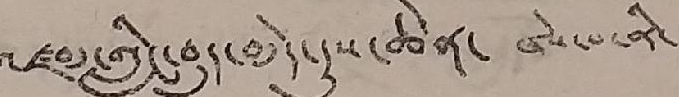འཛམ་གླིང་བུད་མེད་དུས་ཆེན་ ཞེས་པ་ནི་
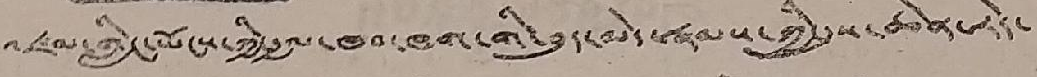འཛམ་གླིང་ཡོངས་ཀྱི་རྒྱལ་ཁབ་ཁག་གི་བུད་མེད་རྣམས་ཀྱི་དུས་ཆེན་རེད་
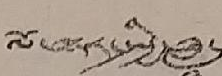ལོ་ལྟར་སྤྱི་ཟླ་
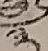༣
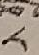༨
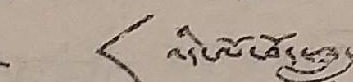<འདི་ལོ་བོད་ཟླ་
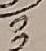༡༡
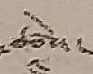ཚེས་
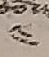༤
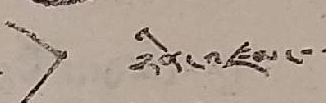> ཉིན་འཛམ་་་
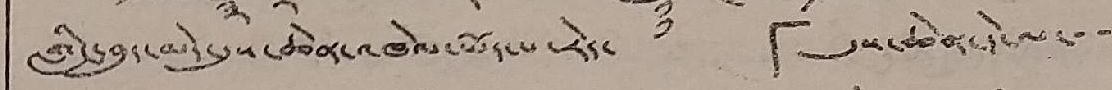གླིང་བུད་མེད་དུས་ཆེན་འཁེལ་ཡོད་པ་རེད་ 「དུས་ཆེན་དེ་ལ་་་
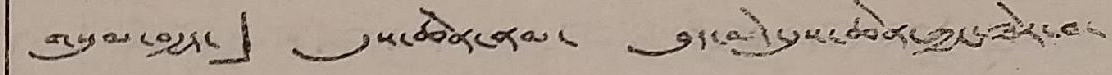གསུམ་བརྒྱད་」 དུས་ཆེན་ནམ་ བུད་མེད་དུས་ཆེན་ཀྱང་ཟེར་བ་
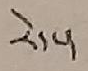རེད་།
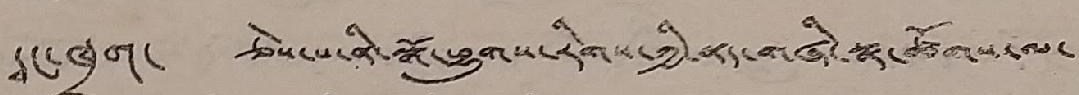དྭང་ཁྲག་ ཅེས་པ་ནི་སྒོ་ཕྱུགས་རིགས་ཀྱི་ནད་གཞི་སྣ་ཚོགས་ལ་
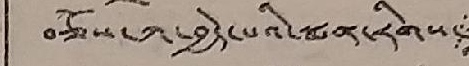བཅོས་ཀ་བྱེད་པའི་སྨན་རིགས་
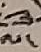ལ་
